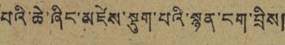པའི་ཆེ་ཞིང་མཛེས་སྡུག་པའི་སྙན་ངག་བྲིས།
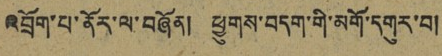འབྲོག་པ་ནོར་ལ་བཞོན། ཕྱུགས་བདག་གི་མགོ་དགུར་བ།
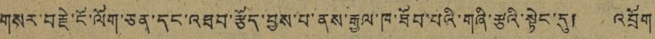གསར་བརྗེ་ངོ་ལོག་ཅན་དང་འཐབ་རྩོད་བྱས་པ་ནས་རྒྱལ་ཁ་ཐོབ་པའི་གཞི་རྩའི་སྟེང་དུ། འབྲོག
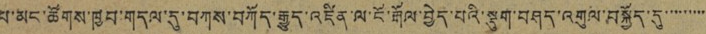པ་མང་ཚོགས་ཁྱབ་གདལ་དུ་བཀས་བཀོད་རྒྱུད་འཛིན་ལ་ངོ་རྒོལ་བྱེད་པའི་སྡུག་བཤད་འགུལ་བསྐྱོད་དུ་་་་་་་་
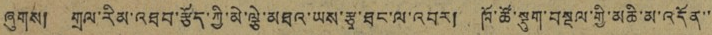ཞུགས། གྲལ་རིམ་འཐབ་རྩོད་ཀྱི་མེ་ལྕེ་མཐའ་ཡས་རྩྭ་ཐང་ལ་འབར། ཁོ་ཚོ་སྡུག་བསྔལ་གྱི་མཆི་མ་འདོན་་
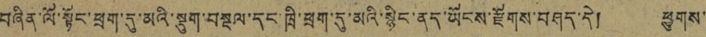བཞིན་ལོ་སྟོང་ཕྲག་དུ་མའི་སྡུག་བསྔལ་དང་ཁྲི་ཕྲག་དུ་མའི་སྙིང་ནད་ཡོངས་རྫོགས་བཤད་དེ། ཕྱུགས་
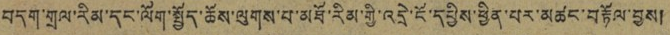བདག་གྲལ་རིམ་དང་ལོག་སྤྱོད་ཆོས་ལུགས་པ་མཐོ་རིམ་གྱི་འདྲེ་ངོ་དཔྱིས་ཕྱིན་པར་མཚང་བརྟོལ་བྱས།
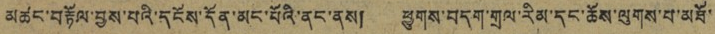མཚང་བརྟོལ་བྱས་པའི་དངོས་དོན་མང་པོའི་ནང་ནས། ཕྱུགས་བདག་གྲལ་རིམ་དང་ཆོས་ལུགས་པ་མཐོ་
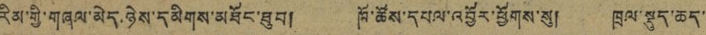རིམ་གྱི་གཞལ་མེད་ཉེས་དམིགས་མཐོང་ཐུབ། ཁོ་ཚོས་དཔལ་འབྱོར་ཕྱོགས་སུ། ཁྲལ་སྡུད་ཆད་
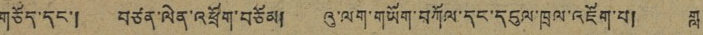གཅོད་དང་། བཙན་ལེན་འཕྲོག་བཅོམ། འུ་ལག་གཡོག་བཀོལ་དང་དངུལ་ཁྲལ་འཇོག་པ། གླ་
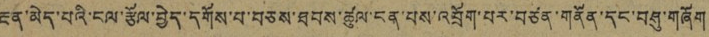རྔན་མེད་པའི་ངལ་རྩོལ་བྱེད་དགོས་པ་བཅས་ཐབས་ཚུལ་ངན་པས་འབྲོག་པར་བཙན་གནོན་དང་བཤུ་གཞོག
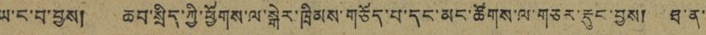ཡ་ང་བ་བྱས། ཆབ་སྲིད་ཀྱི་ཕྱོགས་ལ་སྒེར་ཁྲིམས་གཅོད་པ་དང་མང་ཚོགས་ལ་གཅར་རྡུང་བྱས། ཐ་ན་
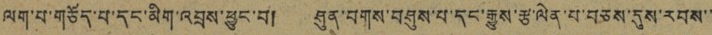ལག་པ་གཅོད་པ་དང་མིག་འབྲས་ཕྱུང་བ། ཤུན་བགས་བཤུས་པ་དང་རྒྱུས་རྩ་ལེན་པ་བཅས་དུས་རབས་་
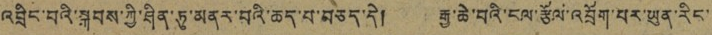འབྲིང་བའི་སྐབས་ཀྱི་ཤིན་ཏུ་མནར་བའི་ཆད་པ་བཅད་དེ། རྒྱ་ཆེ་བའི་ངལ་རྩོལ་འབྲོག་པར་ཡུན་རིང་
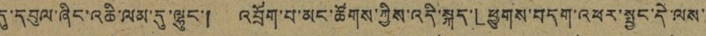དུ་དབུལ་ཞིང་འཆི་ལམ་དུ་ལྷུང་། འབྲོག་པ་མང་ཚོགས་ཀྱིས་འདི་སྐད་「ཕྱུགས་བདག་འཕར་སྦྱང་དེ་ལས་
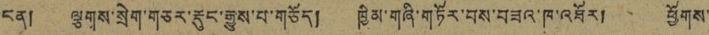ངན། ལྕགས་སྲེག་གཅར་རྡུང་རྒྱུས་པ་གཅོད། ཁྱིམ་གཞི་གཏོར་བས་བཟའ་ཁ་འཐོར། ཕྱོགས་
